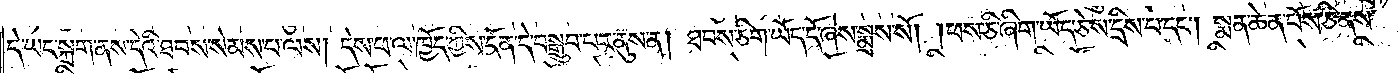དེ་ཡང་སྐྲག་ནས་དེའི་ཐབས་སེམས་པ་ལས། དེས་ཕ་ལ་ཁྱོད་ཀྱིས་དོན་དེ་བསྒྲུབ་པར་ནུས་ན། ཐབས་ཅིག་ཡོད་དོ་ཞེས་སྨྲས་སོ། །ཕས་ཅི་ཞིག་ཡོད་ཅེས་དྲིས་པ་དང༌། སྨན་ཆེན་པོས་ཅི་ནས་
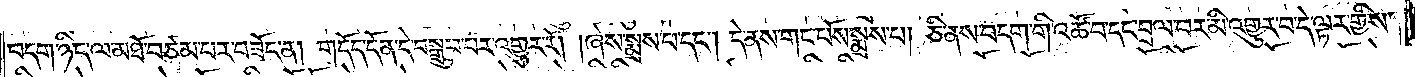བདག་ཉིད་ལ་མཐོ་བཙམ་པར་བཟོད་ན། གདོད་དོན་དེ་བསྒྲུབ་པར་འགྱུར་རོ། །ཞེས་སྨྲས་པ་དང༌། དེ་ནས་གང་པོས་སྨྲས་པ། ཅི་ནས་བདག་གི་འཚོ་བ་དང་བྲལ་བར་མི་འགྱུར་བ་དེ་ལྟར་གྱིས་
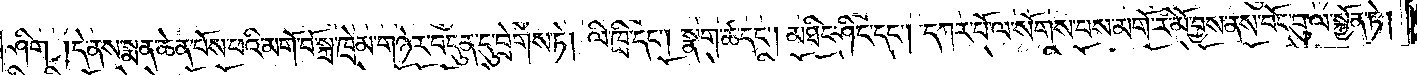ཤིག །དེ་ནས་སྨན་ཆེན་པོས་ཕའི་མགོ་བོ་སྐྲ་ཁྲེམ་གཉེར་བདུན་དུ་བྲེགས་ཏེ། ལི་ཁྲི་དང༌། སྣག་ཚ་དང༌། མཐིང་ཤིང་དང༌། དཀར་པོ་ལ་སོགས་པས་མགོ་རི་མོ་བྱས་ནས་བོང་བུ་ལ་སྐྱོན་ཏེ།
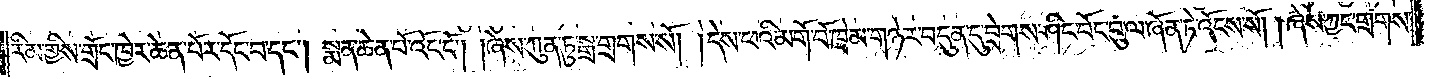རིམ་གྱིས་གྲོང་ཁྱེར་ཆེན་པོར་དོང་བ་དང༌། སྨན་ཆེན་པོ་འོང་ངོ༌། །ཞེས་ཀུན་ཏུ་སྒྲ་གྲགས་སོ། །དེས་ཕའི་མགོ་བོ་ཁྲེམ་གཉེར་བདུན་དུ་བྲེགས་ཤིང་བོང་བུ་ལ་ཞོན་ཏེ་འོངས་སོ། །ཞེས་ཀྱང་གྲགས་
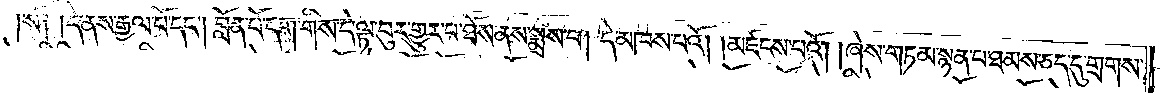སོ༑ །དེ་ནས་རྒྱལ་པོ་དང༌། བློན་པོ་དག་གིས་དེ་ལྟ་བུར་གྱུར་པ་ཐོས་ནས་སྨྲས་པ། དེ་མཁས་པའོ། །མཛངས་པའོ། །ཞེས་གཏམ་སྙན་པ་ཐམས་ཅད་དུ་གྲགས་
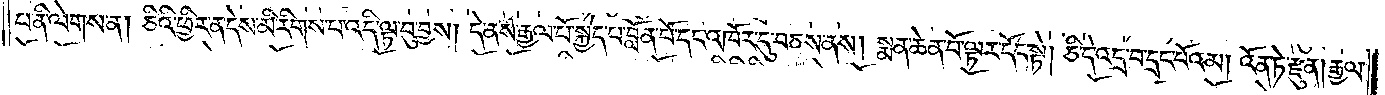པ་ནི་ལེགས་ན། ཅིའི་ཕྱིར་ན་དེས་མི་རིགས་པ་འདི་ལྟ་བུ་བྱས། དེ་ནས་རྒྱལ་པོ་སྐྱེད་པ་བློན་པོ་དང་འཁོར་དུ་བཅས་ནས། སྨན་ཆེན་པོ་ལྟར་དོང་སྟེ། ཅི་དེ་འདྲ་བ་དྲང་པོའམ། འོན་ཏེ་རྫུན། རྒྱལ་
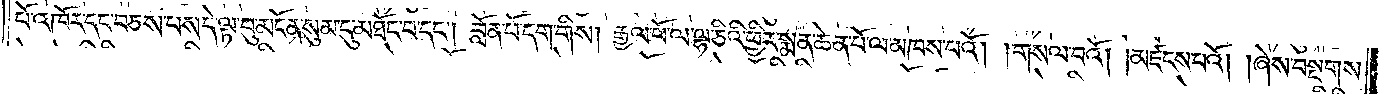པོ་འཁོར་དང་བཅས་པས་དེ་ལྟ་བུ་མངོན་སུམ་དུ་མཐོང་བ་དང༌། བློན་པོ་དག་གིས། རྒྱལ་པོ་ལ་ལྷ་ཅིའི་ཕྱིར་སྨན་ཆེན་པོ་ལ་མཁས་པའོ། །གསལ་བའོ། །མཛངས་པའོ། །ཞེས་བསྔགས་
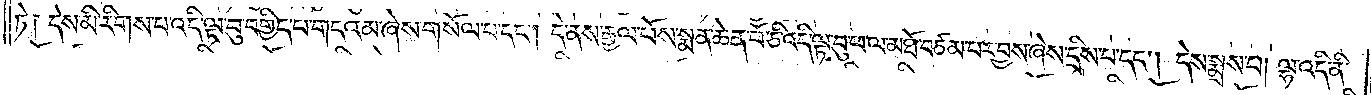ཏེ༑ དེས་མི་རིགས་པ་འདི་ལྟ་བུ་བགྱིད་པ་གདའམ་ཞེས་གསོལ་པ་དང༌། དེ་ནས་རྒྱལ་པོས་སྨན་ཆེན་པོ་ཅི་འདི་ལྟ་བུ་ཕལ་མཐོ་བཙམ་པར་བྱས་ཞེས་དྲིས་པ་དང༌། དེས་སྨྲས་པ། ལྷ་འདི་ནི་
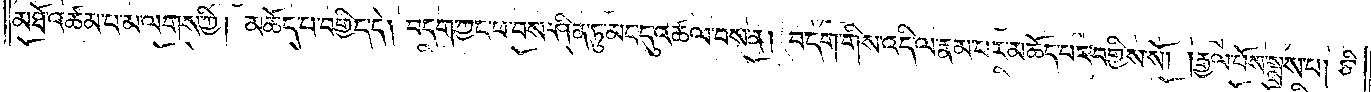མཐོ་འཚམ་པ་མ་ལགས་ཀྱི། མཆོད་པ་བགྱིད་དེ། བདག་ཀྱང་ཕ་བས་ཤིན་ཏུ་མང་དུ་འཚལ་བས་ན། བདག་ཀྱང་ཕ་བས་ཤིན་ཏུ་མང་དུ་འཚལ་བས་ན། བདག་གིས་འདི་ལ་རྣམ་པར་མཆོད་པར་བགྱིས་སོ། །རྒྱལ་པོས་སྨྲས་པ། ཅི་
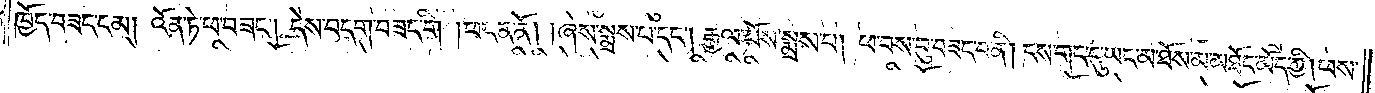ཁྱོད་བཟང་ངམ། འོན་ཏེ་ཕ་བཟང༌། དེས་བདག་བཟང་གི །ཕ་ངན་ནོ། །ཞེས་སྨྲས་པ་དང༌། རྒྱལ་པོས་སྨྲས་པ། ཕ་བས་བུ་བཟང་བའི། ངས་གང་དུ་ཡང་མ་ཐོས་མ་མཐོང་མོད་ཀྱི། ཕས་
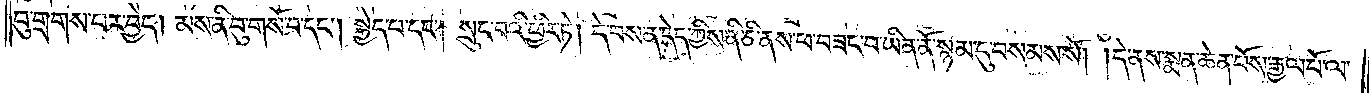བུ་གྲགས་པར་བྱེད། མས་ནི་བུ་གསོ་བ་དང༌། སྐྱེད་པ་དང༌། སྲུང་བའི་ཕྱིར་ཏེ། དེ་བས་ན་དེད་ཀྱིས་ནི་ཅི་ནས་ཕ་བཟང་བ་ཡིན་ནོ་སྙམ་དུ་བསམས་སོ། །དེ་ནས་སྨན་ཆེན་པོས་རྒྱལ་པོ་ལ་
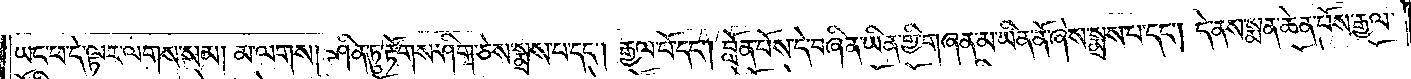ཡང་ཕ་དེ་ལྟར་ལགས་སམ། མ་ལགས། ཤིན་ཏུ་རྟོགས་ཤིག་ཅེས་སྨྲས་པ་དང༌། རྒྱལ་པོ་དང༌། བློན་པོས་དེ་བཞིན་ཡིན་གྱི་གཞན་མ་ཡིན་ནོ་ཞེས་སྨྲས་པ་དང༌། དེ་ནས་སྨན་ཆེན་པོས་རྒྱལ་
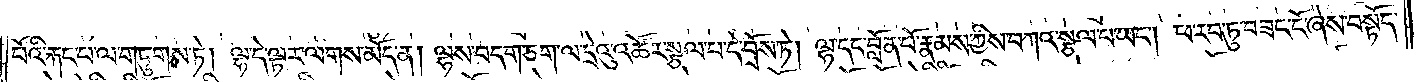པོའི་རྐང་པ་ལ་གཏུགས་ཏེ། ལྷ་དེ་ལྟར་ལགས་མོད་ན། ལྷས་བདག་ཅག་ལ་དྲེའུ་འཚོར་སྩལ་པ་དེ་བྲོས་ཏེ། ལྷ་དང་བློན་པོ་རྣམས་ཀྱིས་བཀའ་སྩལ་པ་ཡང༌། ཕ་རབ་ཏུ་བཟང་ངོ་ཞེས་བསྟོད་
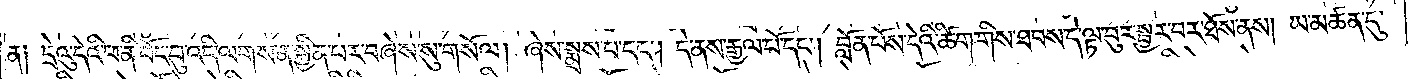ན༑ དྲེའུ་དེའི་ཕ་ནི་བོང་བུ་འདི་ལགས་ན་སྐྱིན་པར་བཞེས་སུ་གསོལ། ཞེས་སྨྲས་པ་དང༌། དེ་ནས་རྒྱལ་པོ་དང༌། བློན་པོས་དེའི་ཚིག་གིས་ཐབས་དེ་ལྟ་བུར་སྦྱར་བར་ཐོས་ནས། ཡ་མཚན་དུ་
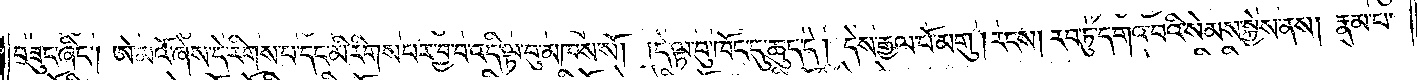བཟུང་ཞིང༌། ཨེ་མའོ་ཞེས་དེ་རིགས་པ་དང་མི་རིགས་པར་བྱ་བ་འདི་ལྟ་བུ་མཁས་སོ། །དེ་ལྟ་བུ་ཁོང་དུ་ཆུད་དེ། དེས་རྒྱལ་པོ་མགུ་།རངས། རབ་ཏུ་དགའ་བའི་སེམས་སྐྱེས་ནས། རྣམ་པ་
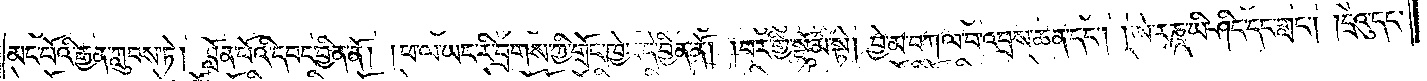མང་པོའི་རྒྱན་ཀླུབས་ཏེ། བློན་པོའི་དབང་བྱིན་ནོ། །ཕ་ལ་ཡང་རི་བྲགས་ཀྱི་གྲོང་ཁྱེར་དེ་བྱིན་ནོ། །བར་གྱི་སྡོམ་སྟེ། བྱེ་མ་བཀལ་བ་འབྲས་ཆན་དང༌། །ཨེ་རཎྜ་ཡི་ཤིང་དང་གླང༌། །དྲེའུ་དང་
